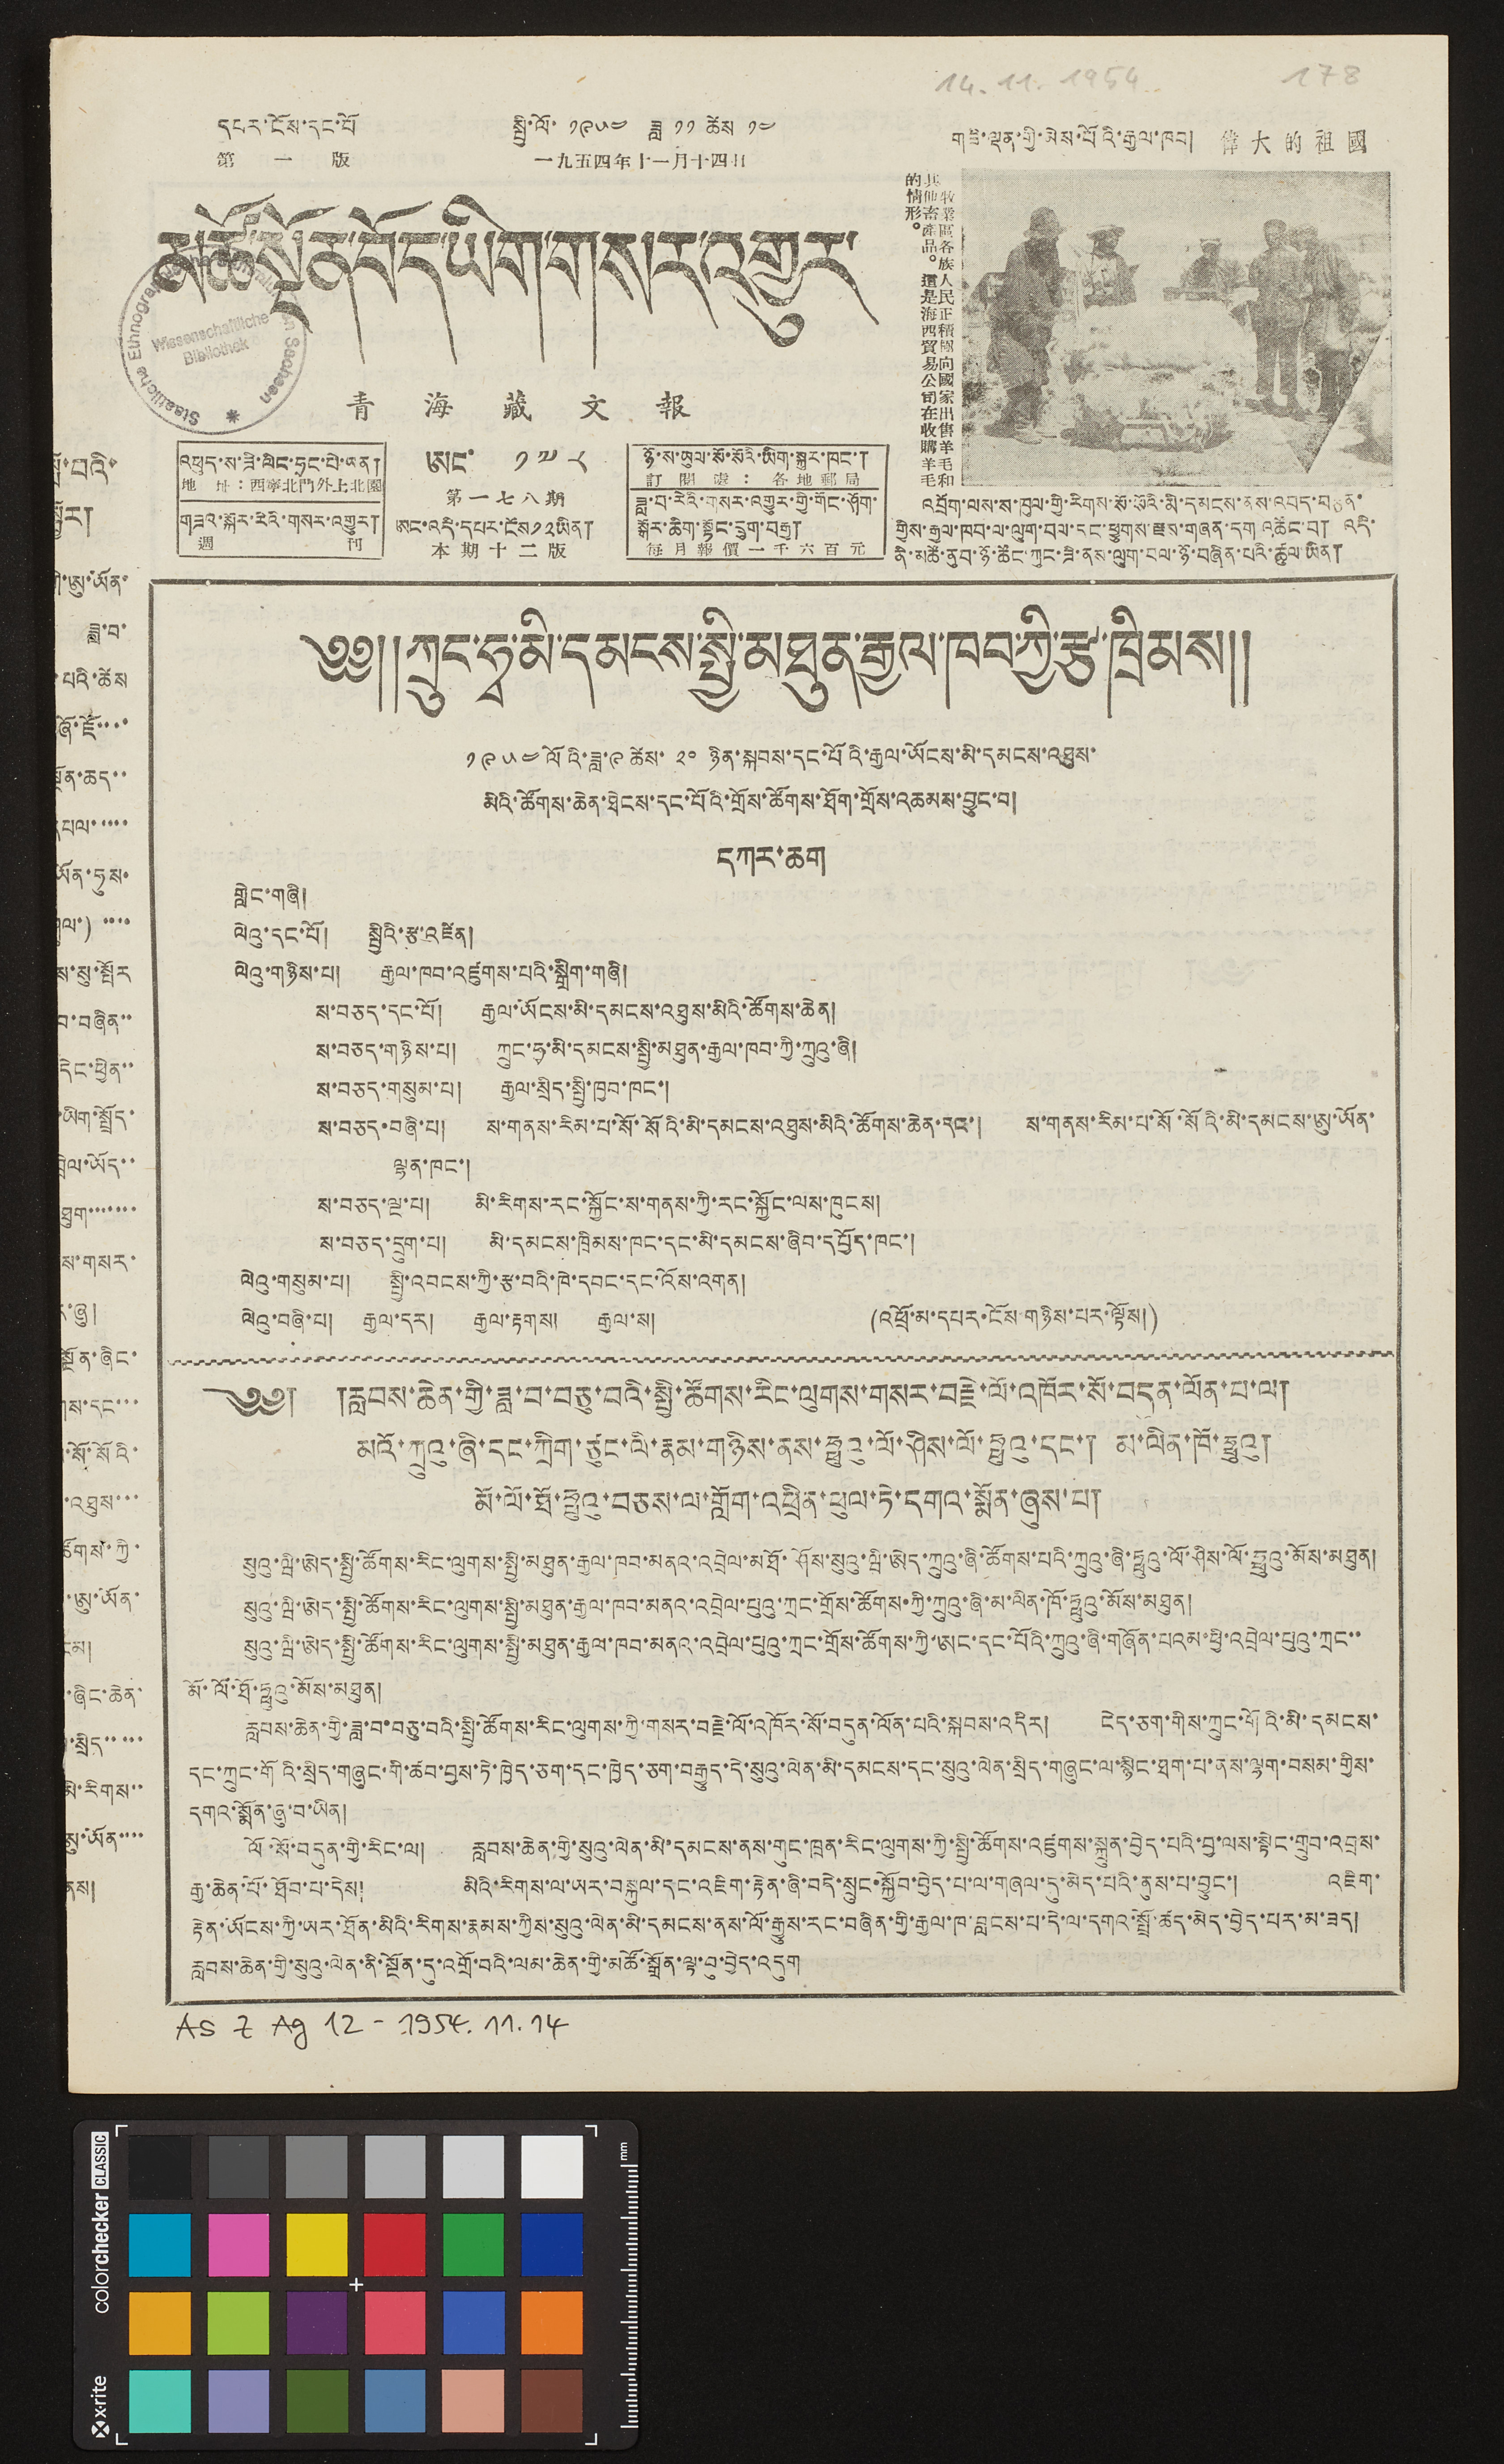དཔར་ངོས་དང་པོ སྤྱི་ལོ ༡༩༥༤ ཟླ ༡༡ ཚེས ༡༤
第 一 版 一九五四年十一月十四日
མཚོ་སྔོན་བོད་ཡིག་གསར་འགྱུར་
青 海 藏 文 報
གཟི་ལྡན་གྱི་མེས་པོའི་རྒྱལ་ཁབ། 偉 大 的 祖 國
牧業區各族人民正積極向國家出售羊毛和
其他畜產品。這是海西貿易公司在收購羊毛
的情形。
འབྲོག་ལས་ས་ཁུལ་གྱི་རིགས་སོ་སོའི་མི་དམངས་ནས་འབད་བརྩོན་
གྱིས་རྒྱལ་ཁབ་ལ་ལུག་བལ་དང་ཕྱུགས་རྫས་གཞན་དག འཚོང་བ། འདི་
ནི་མཚོ་ནུབ་ཉོ་ཚོང་ཀུང་ཟི་ནས་ལུག་བལ་ཉོ་བཞིན་པའི་ཚུལ་ཡིན།
སྤོ་བའི་
སྦྱོར།
གི་ཨུ་ཡོན་
ཟླ་བ་
་པའི་ཚེས
ཞོ་ཇོ་་་་
སྔོན་ཆད་་
དཔལ་་་་་
ཡོན་ཧུས་
ཤུལ་) ་་་་
ས་སུ་སྤོར
བ་བཞིན་་
དེང་ཕྱིན་་
་ཡིག་སྤྲོད་
བྲེལ་ཡོད་་
ཐུག་་་་་་་
ས་གསར་
་ཞུ།
སྔོན་ཞིང་
གས་དང་་་
་སོ་སོའི་
་འཐུས་་་
ཚོགས་ཀྱི་
་ཨུ་ཡོན་
ངམ།
་ཞིང་ཆེན་
་སྲིད་་་་་
མི་རིགས་་
ཨུ་ཡོན་་་་
ནས།
༄༅༎ཀྲུང་ཧྭ་མི་དམངས་སྤྱི་མཐུན་རྒྱལ་ཁབ་ཀྱི་རྩ་ཁྲིམས༎
༡ ༩ ༥ ༤ ལོའི་ཟླ་༩ ཚེས་ ༢༠ ཉིན་སྐབས་དང་པོའི་རྒྱལ་ཡོངས་མི་དམངས་འཐུས་
མིའི་ཚོགས་ཆེན་ཐེངས་དང་པོའི་གྲོས་ཚོགས་ཐོག་གྲོས་འཆམས་བྱུང་བ།
དཀར་ཆག
གླེང་གཞི།
ལེའུ་དང་པོ། སྤྱིའི་རྩ་འཛིན།
ལེའུ་གཉིས་པ། རྒྱལ་ཁབ་འཛུགས་པའི་སྒྲིག་གཞི།
ས་བཅད་དང་པོ། རྒྱལ་ཡོངས་མི་དམངས་འཐུས་མིའི་ཚོགས་ཆེན།
ས་བཅད་གཉིས་པ། ཀྲུང་ཧྭ་མི་དམངས་སྤྱི་མཐུན་རྒྱལ་ཁབ་ཀྱི་ཀྲུའུ་ཞི།
ས་བཅད་གསུམ་པ། རྒྱལ་སྲིད་སྤྱི་ཁྱབ་ཁང་།
ས་བཅད་བཞི་པ། ས་གནས་རིམ་པ་སོ་སོའི་མི་དམངས་འཐུས་མིའི་ཚོགས་ཆེན་དང་། ས་གནས་རིམ་པ་སོ་སོའི་མི་དམངས་ཨུ་ཡོན་
ལྷན་ཁང་།
ས་བཅད་ལྔ་པ། མི་རིགས་རང་སྐྱོང་ས་གནས་ཀྱི་རང་སྐྱོང་ལས་ཁུངས།
ས་བཅད་དྲུག་པ། མི་དམངས་ཁྲིམས་ཁང་དང་མི་དམངས་ཞིབ་དཔྱོད་ཁང་།
ལེའུ་གསུམ་པ། སྤྱི་འབངས་ཀྱི་རྩ་བའི་ཁེ་དབང་དང་འོས་འགན།
ལེའུ་བཞི་པ། རྒྱལ་དར། རྒྱལ་རྟགས། རྒྱལ་ས།
ལེའུ་བཞི་པ། རྒྱལ་དར། རྒྱལ་རྟགས། རྒྱལ་ས། (འཕྲོ་མ་དཔར་ངོས་གཉིས་པར་ལྟོས།)
༄༅། །རླབས་ཆེན་གྱི་ཟླ་བ་བཅུ་བའི་སྤྱི་ཚོགས་རིང་ལུགས་གསར་བརྗེ་ལོ་འཁོར་སོ་བདན་ལོན་པ་ལ།
མའོ་ཀྲུའུ་ཞི་དང་ཀྲིག་ཙུང་ལི་རྣམ་གཉིས་ནས་ཧྥུའུ་ལོ་ཤིས་ལོ་ཧྥུའུ་དང་། མ་ལིན་ཁོ་ཧྥུའུ།
མོ་ལོ་ཐོ་ཧྥུའུ་བཅས་ལ་གློག་འཕྲིན་ཕུལ་ཏེ་དགའ་སྨོན་ཞུས་པ།
སུའུ་ཝི་ཨེད་སྤྱི་ཚོགས་རིང་ལུགས་སྤྱི་མཐུན་རྒྱལ་ཁབ་མནའ་འབྲེལ་མཐོ་ཤོས་སུའུ་ཝི་ཨེད་ཀྲུའུ་ཞི་ཚོགས་པའི་ཀྲུའུ་ཞི་ཧྥུའུ་ལོ་ཤིས་ལོ་ཧྥུའུ་མོས་མཐུན།
སུའུ་ཝི་ཨེད་སྤྱི་ཚོགས་རིང་ལུགས་སྤྱི་མཐུན་རྒྱལ་ཁབ་མནའ་འབྲེལ་པུའུ་ཀྲང་གྲོས་ཚོགས་ཀྱི་ཀྲུའུ་ཞི་མ་ལིན་ཁོ་ཧྥུའུ་མོས་མཐུན།
སུའུ་ཝི་ཨེད་སྤྱི་ཚོགས་རིང་ལུགས་སྤྱི་མཐུན་རྒྱལ་ཁབ་མནའ་འབྲེལ་པུའུ་ཀྲང་གྲོས་ཚོགས་ཀྱི་ཨང་དང་པོའི་ཀྲུའུ་ཞི་གཞོན་པའམ་ཕྱི་འབྲེལ་པུའུ་ཀྲང་་
མོ་ལོ་ཐོ་ཧྥུའུ་མོས་མཐུན།
རླབས་ཆེན་གྱི་ཟླ་བ་བཅུ་བའི་སྤྱི་ཚོགས་རིང་ལུགས་ཀྱི་གསར་བརྗེ་ལོ་འཁོར་སོ་བདུན་ལོན་པའི་སྐབས་འདིར། ངེད་ཅག་གིས་ཀྲུང་གོའི་མི་དམངས་
དང་ཀྲུང་གོའི་སྲིད་གཞུང་གི་ཚབ་བྱས་ཏེ་ཁྱེད་ཅག་དང་ཁྱེད་ཅག་བརྒྱུད་དེ་སུའུ་ལེན་མི་དམངས་དང་སུའུ་ལེན་སྲིད་གཞུང་ལ་སྙིང་ཐག་པ་ནས་ལྷག་བསམ་གྱིས་
དགའ་སྨོན་ཞུ་བ་ཡིན།
ལོ་སོ་བདུན་གྱི་རིང་ལ། རླབས་ཆེན་གྱི་སུའུ་ལེན་མི་དམངས་ནས་གུང་ཁྲན་རིང་ལུགས་ཀྱི་སྤྱི་ཚོགས་འཛུགས་སྐྲུན་བྱེད་པའི་བྱ་ལས་སྟེང་གྲུབ་འབྲས་
རྒྱ་ཆེན་པོ་ཐོབ་པ་དེས། མིའི་རིགས་ལ་ཡར་བསྐུལ་དང་འཇིག་རྟེན་ཞི་བདེ་སྲུང་སྐྱོབ་བྱེད་པ་ལ་གཞལ་དུ་མེད་པའི་ནུས་པ་བྱུང་། འཇིག་
རྟེན་ཡོངས་ཀྱི་ཡར་ཐོན་མིའི་རིགས་རྣམས་ཀྱིས་སུའུ་ལེན་མི་དམངས་ནས་ལོ་རྒྱུས་རང་བཞིན་གྱི་རྒྱལ་ཁ་བླངས་པ་དེ་ལ་དགའ་སྤྲོ་ཚད་མེད་བྱེད་པར་མ་ཟད།
རླབས་ཆེན་གྱི་སུའུ་ལེན་ནི་སྔོན་དུ་འགྲོ་བའི་ལམ་ཆེན་གྱི་མཚོ་སྒྲོན་ལྟ་བུ་བྱེད་འདུག
